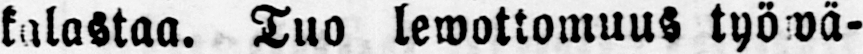kalastaa. Tuo lewottomuus työ wä-
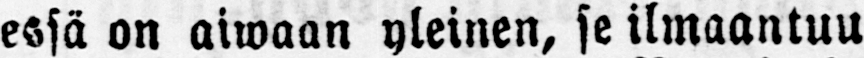essä on aiwaan yleinen, se ilmaantuu
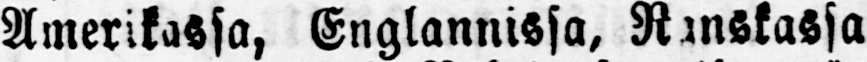Amerikassa, Englannissa, Ranskassa
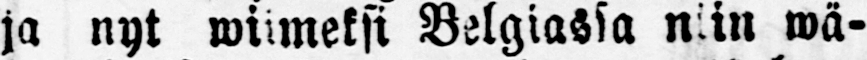ja nyt wiimeksi Belgiassa niin wä-
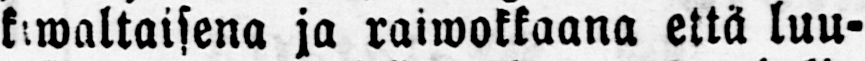kiwaltaisena ja raiwokkaana että luu-
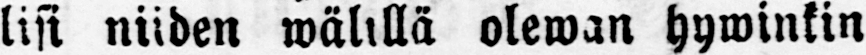lisi niiden wälillä olewan hywinkin
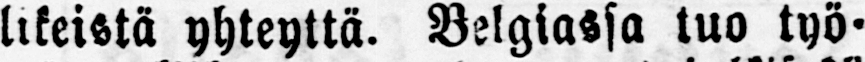likeistä yhteyttä. Belgiassa tuo työ-
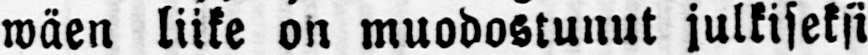wäen liike on muodostunut julkiseksi
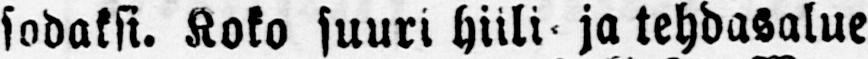sodaksi. Koko suuri hiili- ja tehdasalue
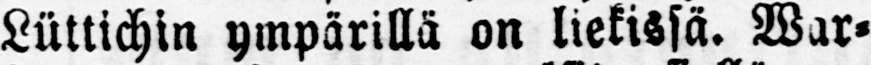Lüttichin ympärillä on liekissä. War-
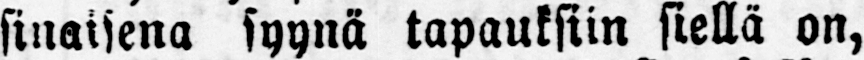sinaisena syynä tapauksiin siellä on,
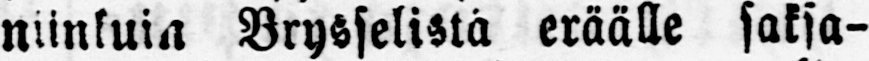niinkuin Brysselistä eräälle saksa-
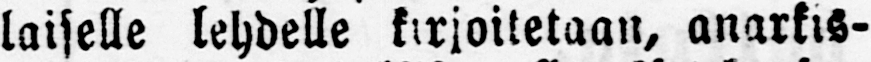laiselle lehdelle kirjoitetaan, anarkts-
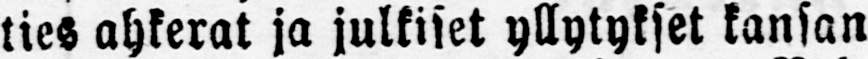ties ahkerat ja julkiset yllytykset kansan
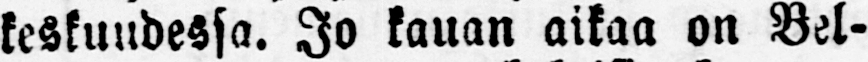keskuudessa. Jo kauan aikaa on Bel-
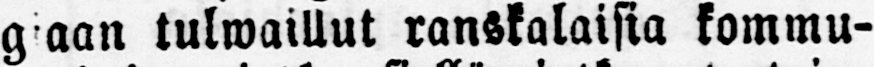giaan tulwaillut ranskalaisia kommu-
